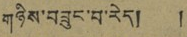གཉིས་བཟུང་བ་རེད། །
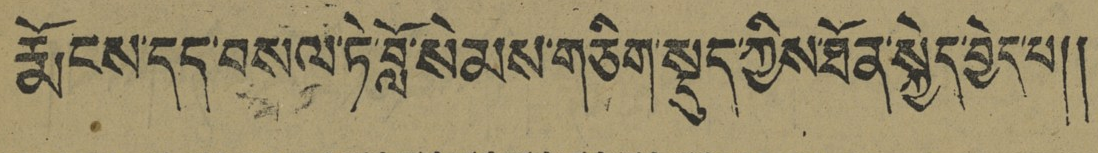རྨོངས་དད་བསལ་ཏེ་བློ་སེམས་གཅིག་སྡུད་ཀྱིས་ཐོན་སྐྱེད་བྱེད་པ༎
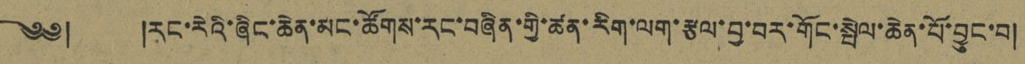༄༅། །རང་རེའི་ཞིང་ཆེན་མང་ཚོགས་རང་བཞིན་གྱི་ཚན་རིག་ལག་རྩལ་བྱ་བར་གོང་སྤེལ་ཆེན་པོ་བྱུང་བ།
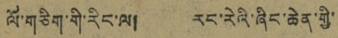ལོ་གཅིག་གི་རིང་ལ། རང་རེའི་ཞིང་ཆེན་གྱི་
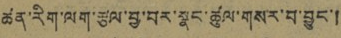ཚན་རིག་ལག་རྩལ་བྱ་བར་སྣང་ཚུལ་གསར་བ་བྱུང་།
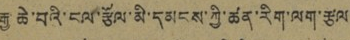རྒྱ་ཆེ་བའི་ངལ་རྩོལ་མི་དམངས་ཀྱི་ཚན་རིག་ལག་རྩལ་
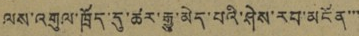ལས་འགུལ་ཁྲོད་དུ་ཚར་རྒྱུ་མེད་པའི་ཤེས་རབ་མངོན་་་
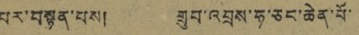པར་བསྟན་པས། གྲུབ་འབྲས་ཧ་ཅང་ཆེན་པོ་
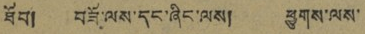ཐོབ། བཟོ་ལས་དང་ཞིང་ལས། ཕྱུགས་ལས་
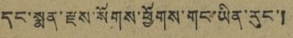དང་སྨན་རྫས་སོགས་ཕྱོགས་གང་ཡིན་རུང་།
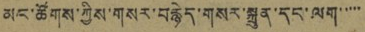མང་ཚོགས་ཀྱིས་གསར་བརྙེད་གསར་སྐྲུན་དང་ལག་་་་་
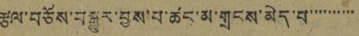རྩལ་བཅོས་བསྒྱུར་བྱས་པ་ཚང་མ་གྲངས་མེད་པ་་་་་་་་་་
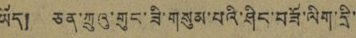ཡོད། ཅན་ཀྲུའུ་གུང་ཟི་གསུམ་པའི་ཤིང་བཟོ་ལིག་དྲི་
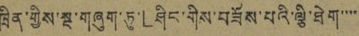ཁྲིན་གྱིས་སྔ་གཞུག་ཏུ་「ཤིང་གིས་བཟོས་པའི་ལྕི་ཐེག་་་་
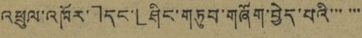འཕྲུལ་འཁོར་」དང་「ཤིང་གཏུབ་གཞོག་བྱེད་པའི་་་་་་
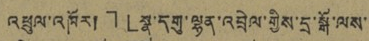འཕྲུལ་འཁོར།」「སྣ་དགུ་ལྷན་འབྲེལ་གྱིས་དྲ་སྒོ་ལས་
